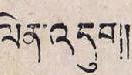ལེན་འདུག།
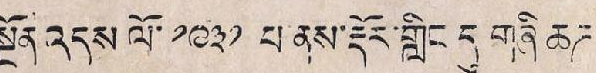སྔོན་འདས་ལོ་ ༡༩༣༡ པ་ནས་རྡོར་གླིང དུ གཞི་ཆཊ
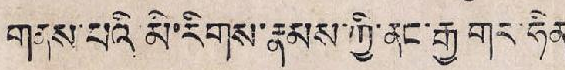གནས་པའི་མི་རིགས་རྣམས་ཀྱི་ནང་རྒྱ གར་ཧིན་
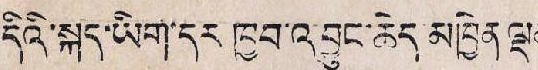དེའི་སྐད་ཡིག་དར་ཁྱབ་འབྱུང་ཆེད་མཁྱེན་ལྡན་
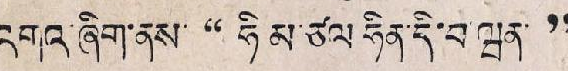འགའ་ཞིག་ནས་ '' ཧི མ་ཙལ་ཧིན་དི་བ་ཝན་ ''
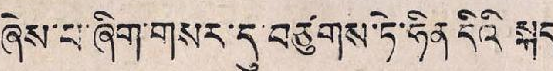ཞེས་པ་ཞིག་གསར་དུ་བཙུགས་ཏེ་ཧིན་དིའི སྐད་
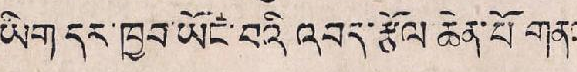ཡིག་དར་ཁྱབ་ཡོང་བའི འབད་རྩོལ་ཆེན་པོ གནང་
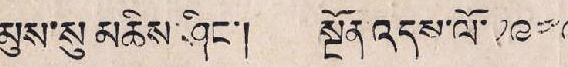མུས་སུ་མཆིས་ཤིང་། སྔོན་འདས་ལོ་ ༡༩༤༩
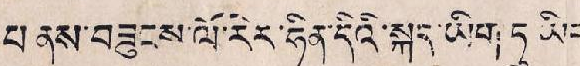པ ནས་བཟུངས་ལོ་རེར་ཧིན་དིའི་སྐད་ཡིག ཏུ ཡིག་
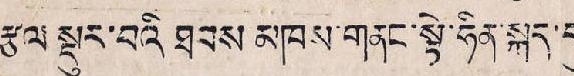རྩལ་སྡུར་བའི ཐབས མཁས་གནང་སྟེ་ཧིན་སྐད་དུ་
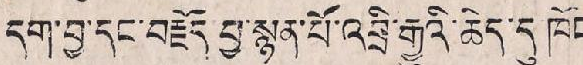དག་བྱ་དང་བརྗོད་བྱ་སྙན་པོ་འབྲི་རྒྱུའི་ཆེད་དུ་ཁོང་
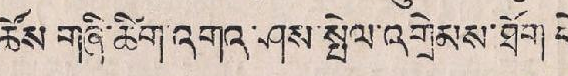ཚོས་གཞི་ཚིག་འགའ་ཤས་སྤེལ་འགྲེམས་ཐོག་དེ་
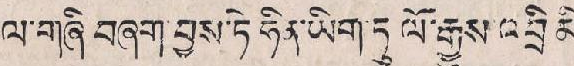ལ་གཞི བཞག་བྱས་ཏེ་ཧིན་ཡིག་ཏུ ལོ་རྒྱུས་འབྲི མི་
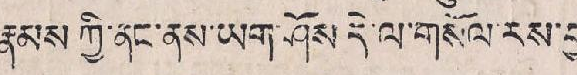རྣམས ཀྱི་ནང་ནས་ཡག་ཤོས་དེ་ལ་གསོལ་རས་བྱ་
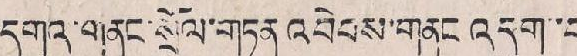དགའ་གནང་སྲོལ་གཏན་འབེབས་གནང འདུག་པ་
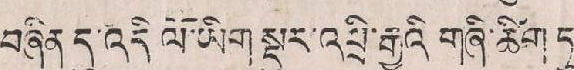བཞིན་དུ་འདི ལོ་ཡིག སྡུར་འཔྲི་རྒྱུའི གཞི་ཚིག ཏུ་
